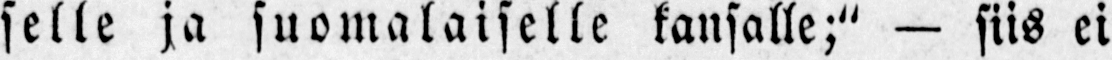selle ja suomalaiselle kansalle;" — siis ei
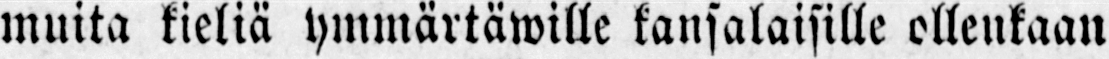muita kieliä ymmärtäwille kansalaisille ollenkaan
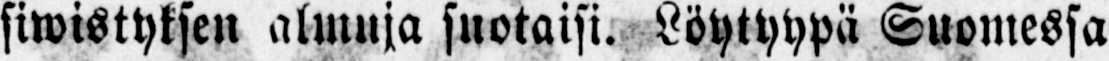siwistyksen almuja suotaisi. Löytyypä Suomessa
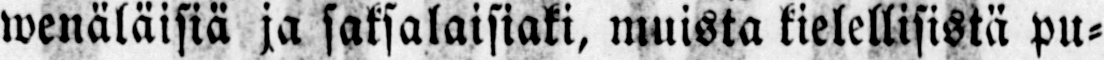wenäläisiä ja saksalaisiaki, muista kielellisistä pu-
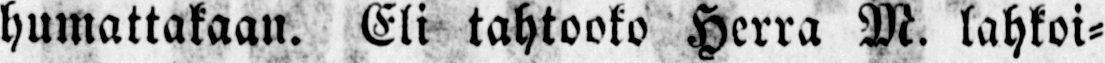humattakaan. Eli tahtooko Herra M. lahkoi-
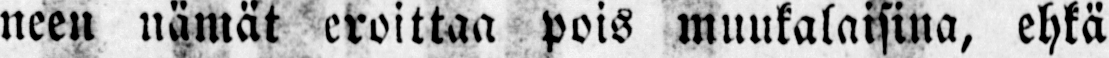neen nämät eroittaa pois muukalaisina, ehkä
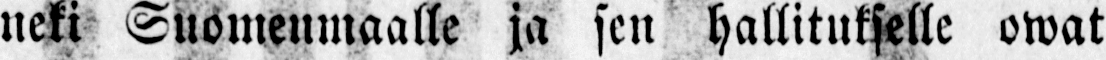neki Suomenmaalle ja sen hallitukselle owat
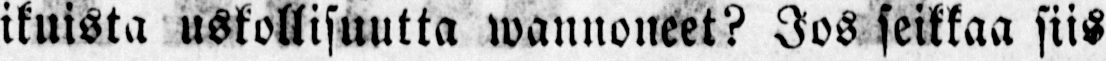ikuista uskollisuutta wannoneet? Jos seikkaa siis
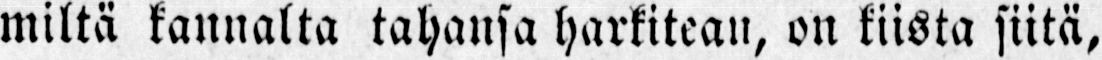miltä kannalta tahansa harkitean, on kiista siitä,
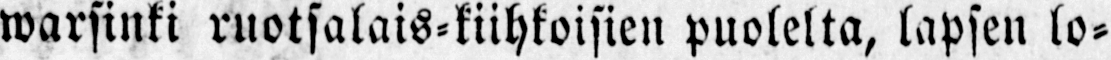warsinki ruotsalais-kiihkoisien puolelta, lapsen lo-
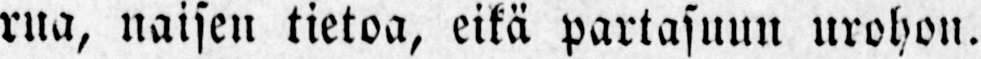rua, naisen tietoa, eikä partasuun urohon.
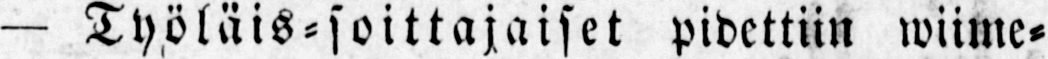— Työläis-soittajaiset pidettiin wiime-
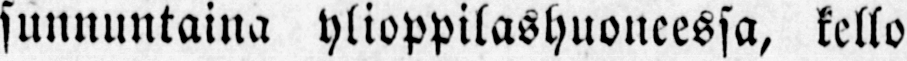sunnnntaina ylioppilashuoneessa, kello
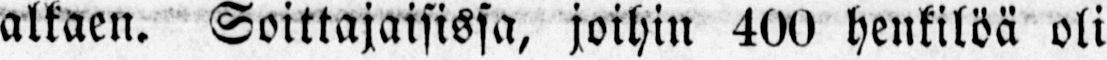alkaen. Soittajaisissa, joihin 400 henkilöä oli
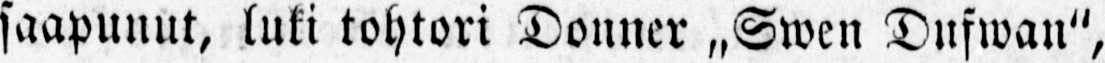saapunut, luki tohtori Donner „Swen Dufwan",
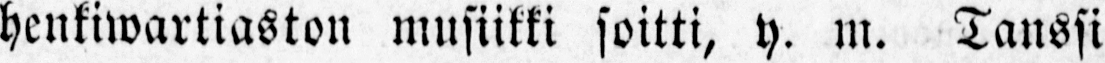henkiwartiaston musiikki soitti, y. m. Tanssi
